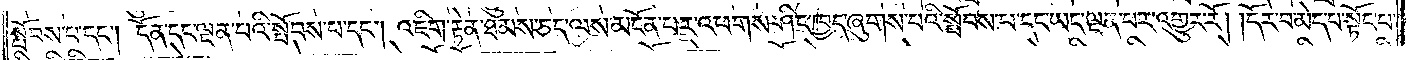སྤོབས་པ་དང༌། དོན་དང་ལྡན་པའི་སྤོབས་པ་དང༌། འཇིག་རྟེན་ཐམས་ཅད་ལས་མངོན་པར་འཕགས་ཤིང་ཁྱད་ཞུགས་པའི་སྤོབས་པ་དང་ཡང་ལྡན་པར་འགྱུར་རོ། །དོར་བ་མེད་པ་སྟོང་པ་
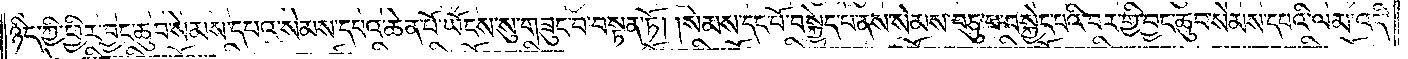ཉིད་ཀྱི་ཕྱིར། བྱང་ཆུབ་སེམས་དཔའ་སེམས་དཔའ་ཆེན་པོ་ཡོངས་སུ་བཟུང་བ་བསྟན་ཏོ། །སེམས་དང་པོ་བསྐྱེད་པ་ནས་སེམས་བཅུ་པ་བསྐྱེད་པའི་བར་གྱི་བྱང་ཆུབ་སེམས་དཔའི་ལམ་འདི་
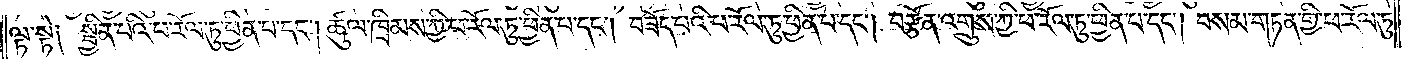ལྟ་སྟེ། སྦྱིན་པའི་ཕ་རོལ་ཏུ་ཕྱིན་པ་དང༌། ཚུལ་ཁྲིམས་ཀྱི་ཕ་རོལ་ཏུ་ཕྱིན་པ་དང༌། བཟོད་པའི་ཕ་རོལ་ཏུ་ཕྱིན་པ་དང༌། བརྩོན་འགྲུས་ཀྱི་ཕ་རོལ་ཏུ་ཕྱིན་པ་དང༌། བསམ་གཏན་གྱི་ཕ་རོལ་ཏུ་
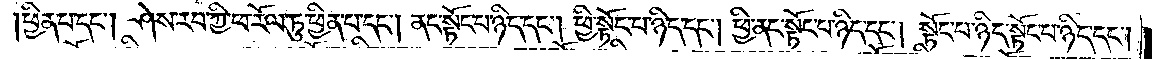ཕྱིན་པ་དང༌། ཤེས་རབ་ཀྱི་ཕ་རོལ་ཏུ་ཕྱིན་པ་དང༌། ནང་སྟོང་པ་ཉིད་དང༌། ཕྱི་སྟོང་པ་ཉིད་དང༌། ཕྱི་ནང་སྟོང་པ་ཉིད་དང༌། སྟོང་པ་ཉིད་སྟོང་པ་ཉིད་དང༌།
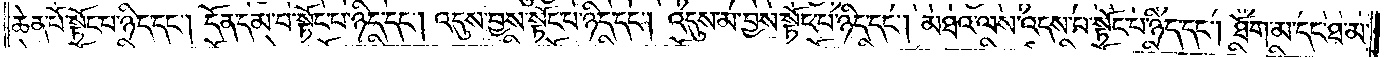ཆེན་པོ་སྟོང་པ་ཉིད་དང༌། དོན་དམ་པ་སྟོང་པ་ཉིད་དང༌། འདུས་བྱས་སྟོང་པ་ཉིད་དང༌། འདུས་མ་བྱས་སྟོང་པ་ཉིད་དང༌། མཐའ་ལས་འདས་པ་སྟོང་པ་ཉིད་དང༌། ཐོག་མ་དང་ཐ་མ་
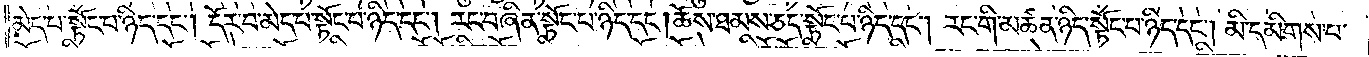མེད་པ་སྟོང་པ་ཉིད་དང༌། དོར་བ་མེད་པ་སྟོང་པ་ཉིད་དང༌། རང་བཞིན་སྟོང་པ་ཉིད་དང༌། ཆོས་ཐམས་ཅད་སྟོང་བ་ཉིད་དང༌། རང་གི་མཚན་ཉིད་སྟོང་པ་ཉིད་དང༌། མི་དམིགས་པ་
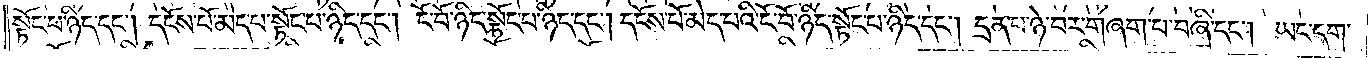སྟོང་པ་ཉིད་དང༌། དངོས་པོ་མེད་པ་སྟོང་པ་ཉིད་དང༌། ངོ་བོ་ཉིད་སྟོང་པ་ཉིད་དང༌། དངོས་པོ་མེད་པའི་ངོ་བོ་ཉིད་སྟོང་པ་ཉིད་དང༌། དྲན་པ་ཉེ་བར་གཞག་པ་བཞི་དང༌། ཡང་དག་
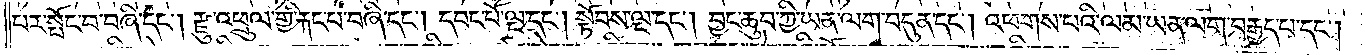པར་སྤོང་བ་བཞི་དང༌། རྫུ་འཕྲུལ་གྱི་རྐང་པ་བཞི་དང༌། དབང་པོ་ལྔ་དང༌། སྟོབས་ལྔ་དང༌། བྱང་ཆུབ་ཀྱི་ཡན་ལག་བདུན་དང༌། འཕགས་པའི་ལམ་ཡན་ལག་བརྒྱད་པ་དང༌།
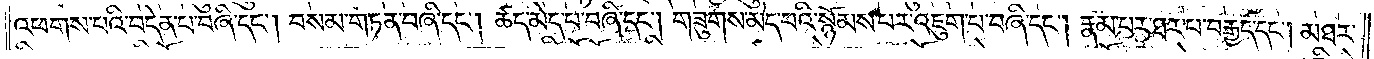འཕགས་པའི་བདེན་པ་བཞི་དང༌། བསམ་གཏན་བཞི་དང༌། ཚད་མེད་པ་བཞི་དང༌། གཟུགས་མེད་པའི་སྙོམས་པར་འཇུག་པ་བཞི་དང༌། རྣམ་པར་ཐར་པ་བརྒྱད་དང༌། མཐར་
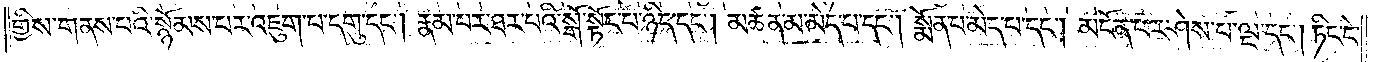གྱིས་གནས་པའི་སྙོམས་པར་འཇུག་པ་དགུ་དང༌། རྣམ་པར་ཐར་པའི་སྒོ་སྟོང་པ་ཉིད་དང༌། མཚན་མ་མེད་པ་དང༌། སྨོན་པ་མེད་པ་དང༌། མངོན་པར་ཤེས་པ་ལྔ་དང༌། ཏིང་ངེ་
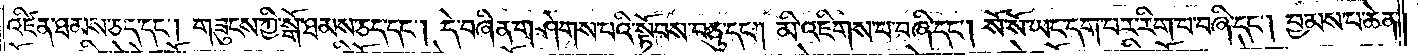འཛིན་ཐམས་ཅད་དང༌། གཟུངས་ཀྱི་སྒོ་ཐམས་ཅད་དང༌། དེ་བཞིན་གཤེགས་པའི་སྟོབས་བཅུ་དང༌། མི་འཇིགས་པ་བཞི་དང༌། སོ་སོ་ཡང་དག་པར་རིག་པ་བཞི་དང༌། བྱམས་པ་ཆེན་
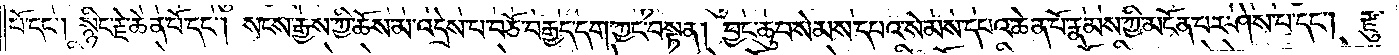པོ་དང༌། སྙིང་རྗེ་ཆེན་པོ་དང༌། སངས་རྒྱས་ཀྱི་ཆོས་མ་འདྲེས་པ་བཅོ་བརྒྱད་དག་ཀྱང་བསྟན། བྱང་ཆུབ་སེམས་དཔའ་སེམས་དཔའ་ཆེན་པོ་རྣམས་ཀྱི་མངོན་པར་ཤེས་པ་དང༌། རྫུ་
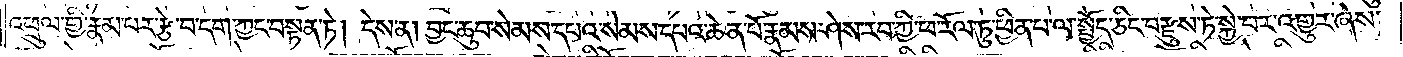འཕྲུལ་གྱིས་རྣམ་པར་རྩེ་བ་དག་ཀྱང་བསྟན་ཏེ། དེས་ན། བྱང་ཆུབ་སེམས་དཔའ་སེམས་དཔའ་ཆེན་པོ་རྣམས་ཤེས་རབ་ཀྱི་ཕ་རོལ་ཏུ་ཕྱིན་པ་ལ་སྤྱོད་ཅིང༌། བརྫུས་ཏེ་སྐྱེ་བར་འགྱུར་ཞེས་
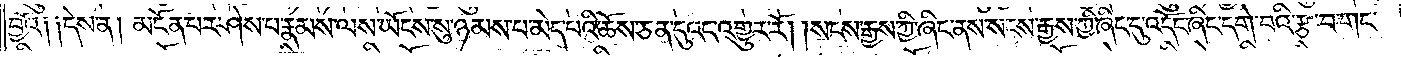བྱའོ༏ ༏དེས་ན། མངོན་པར་ཤེས་པ་རྣམས་ལས་ཡོངས་སུ་ཉམས་པ་མེད་བའི་ཆོས་ཅན་དུའང་འགྱུར་རོ། །སངས་རྒྱས་ཀྱི་ཞིང་ནས་སངས་རྒྱས་ཀྱི་ཞིང་དུ་འདོང་ཞིང་དགེ་བའི་རྩ་བ་གང་
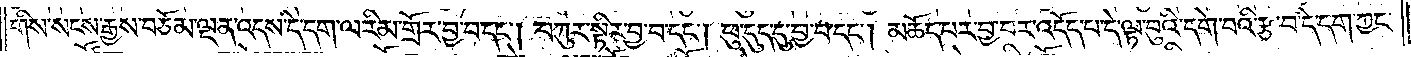གིས་སངས་རྒྱས་བཅོམ་ལྡན་འདས་དེ་དག་ལ་རིམ་གྲོར་བྱ་བ་དང༌། བཀུར་སྟིར་བྱ་བ་དང༌། ཕུ་དུད་དུ་བྱ་བ་དང༌། མཆོད་པར་བྱ་བར་འདོད་པ་དེ་ལྟ་བུའི་དགེ་བའི་རྩ་བ་དེ་དག་ཀྱང་
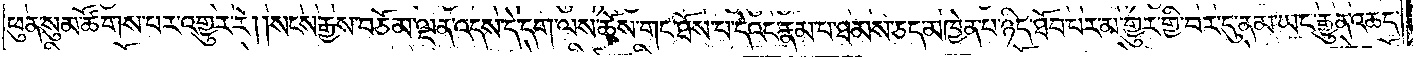ཕུན་སུམ་ཚོགས་པར་འགྱུར་རོ། །སངས་རྒྱས་བཅོམ་ལྡན་འདས་དེ་དག་ལས་ཆོས་གང་ཐོས་པ་དེའང་རྣམ་པ་ཐམས་ཅད་མཁྱེན་པ་ཉིད་ཐོབ་པར་མ་གྱུར་གྱི་བར་དུ་ནམ་ཡང་རྒྱུན་འཆད་
